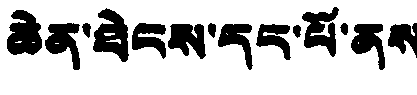ཆེན་ཐེངས་དང་པོ་ནས
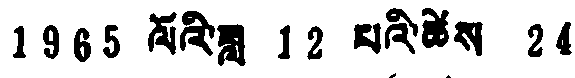1965 ལོའི་ཟླ 12 པའི་ཚེས 24
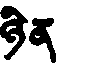ཉིན
